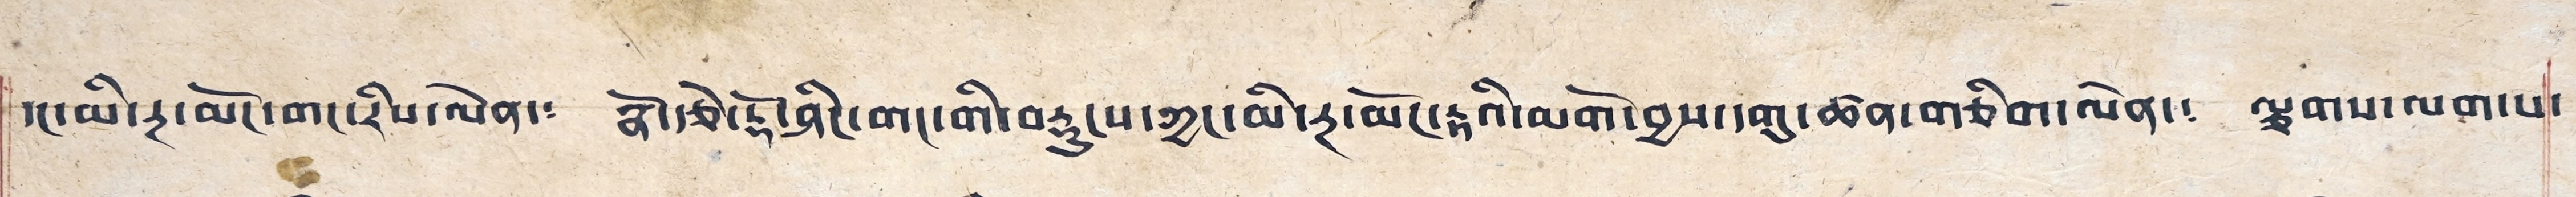དང་མི་རྔ་མོང་གང་རིས་ལེན་༴ རྣོ་རྩེ་རྡོ་ཤིང་གང་གི་བརྡུངས་ཀྱང་མི་རྔ་མོང་རྟའི་མགོ་བྱས་དགུ་ཚན་གཅིག་ལེན་༴ ལྕགས་ལག་པ་
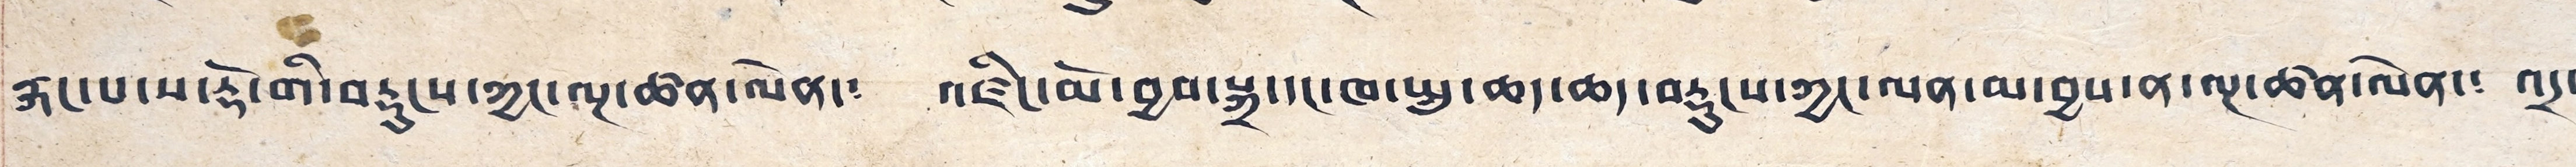རྐང་པ་ས་རྡོ་གི་བརྡུངས་ཀྱང་ལྔ་ཚན་ལེན་༴ འཛིང་མོ་བྱབ་སྐྲ་དང་ཁ་སྤུ་ཆད་ཆད་བརྡུངས་ཀྱང་ལན་མ་བྱས་ན་ལྔ་ཚན་ལེན་༴ འདྲ་
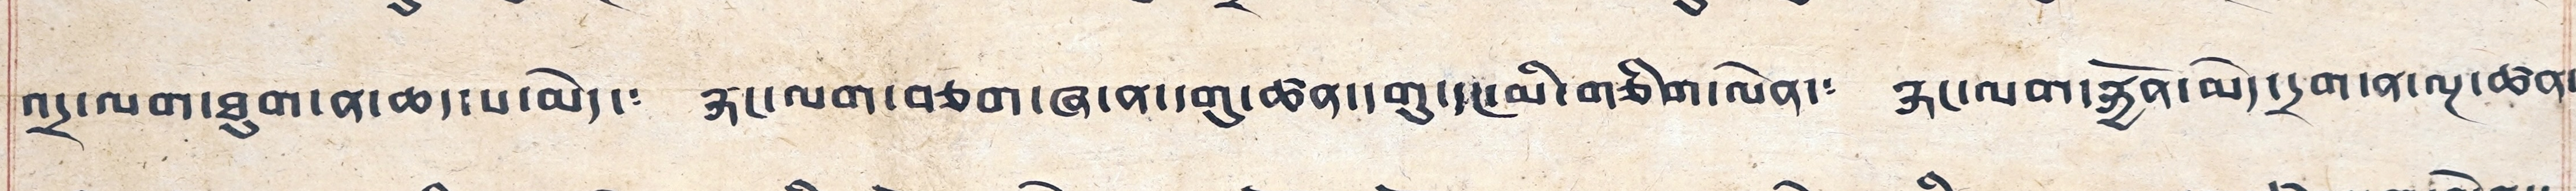འདྲ་ལག་ཐུག་ན་ཆད་པ་མེད་༴ རྐང་ལག་བཅག་ཞ་ན་དགུ་ཚན་དགུ་དང་མི་གཅིག་ལེན་༴ རྐང་ལག་རྐྱོན་མེད་དྲག་ན་ལྔ་ཚན་
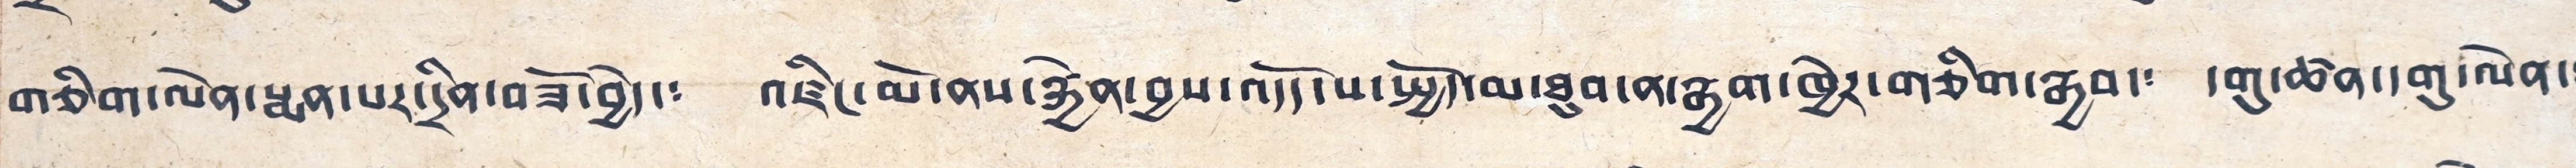གཅིག་ལེན་སྨན་པར་དྲིན་བཟོ་བྱེད་༴ འཛིང་མོ་ནས་རྐྱེན་བྱས་འདོད་པ་སྤྱོད་མ་ཐུབ་ན་རྒྱག་ཁྱེར་གཅིག་རྒྱབ་༴ དགུ་ཚན་དགུ་ལེན་༴
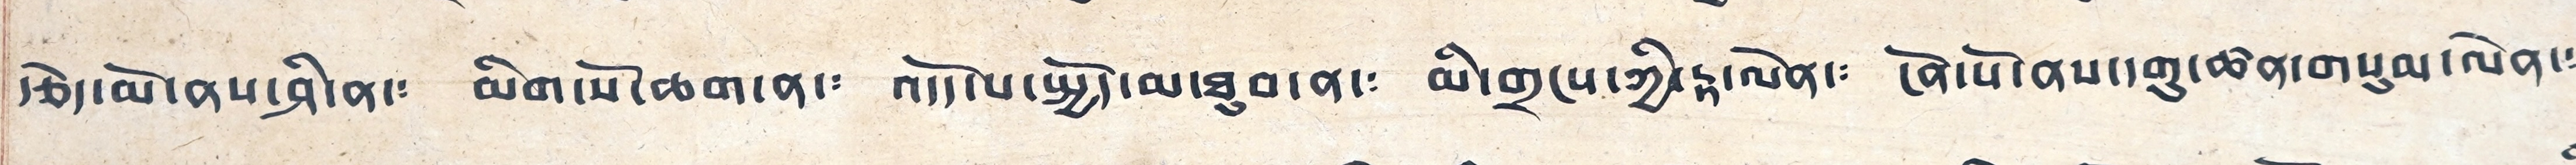རྩེད་མོ་ནས་ཤི་ན་༴ མིག་སོ་ཆག་ན་༴ འདོད་པ་སྤྱོད་མ་ཐུབ་ན་༴ མི་གྲངས་ཀྱི་རྟ་ལེན་༴ ངོན་པོ་ནས་དགུ་ཚན་གསུམ་ལེན་༴
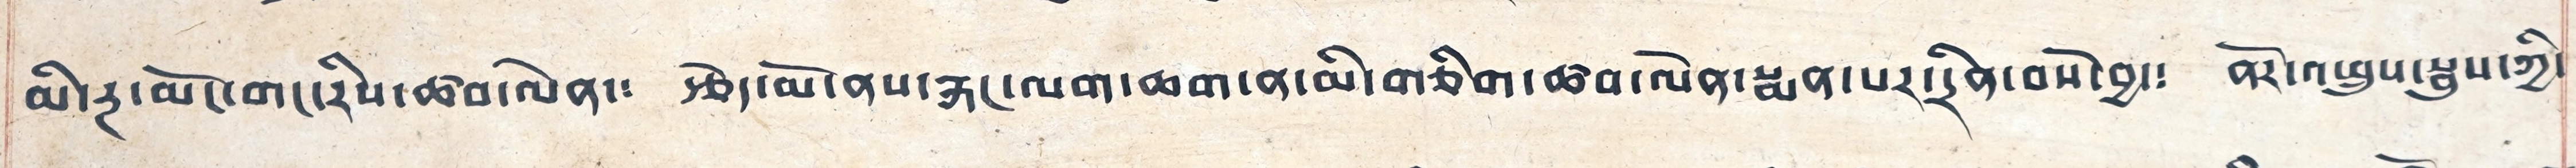མི་རྔ་མོང་གང་རིས་ཚབ་ལེན་༴ རྩེད་མོ་ནས་རྐང་ལག་ཆག་ན་མི་གཅིག་ཆབ་ལེན་སྨན་པར་དྲིན་བསོ་བྱ་༴ ནོར་འཕྲུས་སྦུས་ཀྱི་
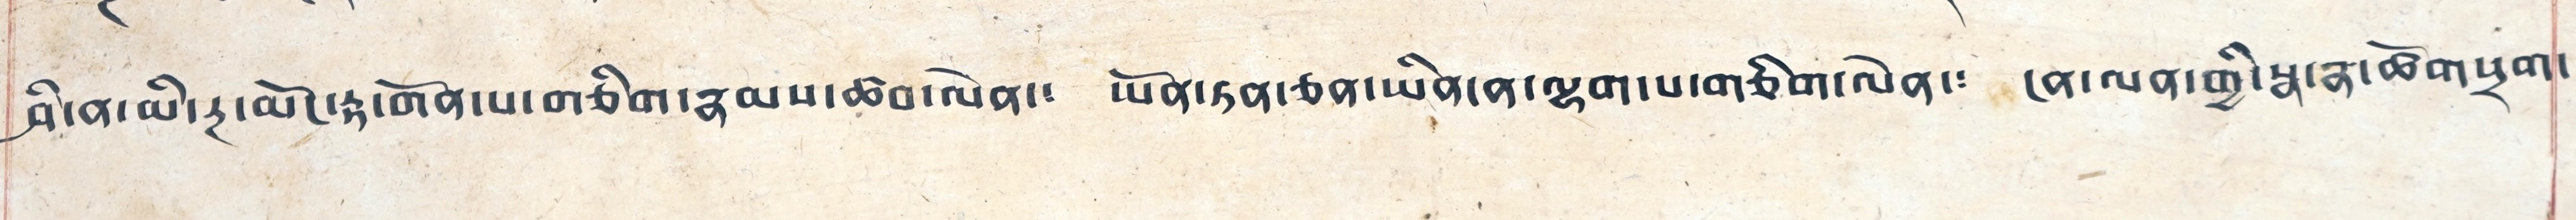ཤི་ན་མི་རྔ་མོང་རྟ་གོན་པ་གཅིག་རྣམས་ཆབ་ལེན་༴ ཡོན་ཏན་ཅན་ཡིན་ན་ལྷག་པ་གཅིག་ལེན་༴ ངན་ལན་གྱི་སྣ་རྣ་ཆོག་སྲག་
